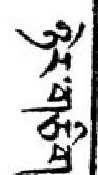ཉེར་གཅིག་
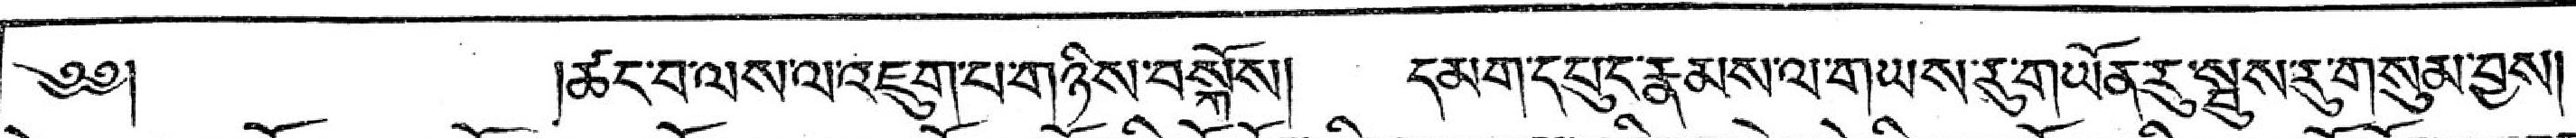༄༅། །ཚང་པ་ལས་ལ་འཇུག་པ་གཉིས་བསྐོས། དམག་དཔུང་རྣམས་ལ་གཡས་རུ་གཡོན་རུ་སྦུས་རུ་གསུམ་བྱས།
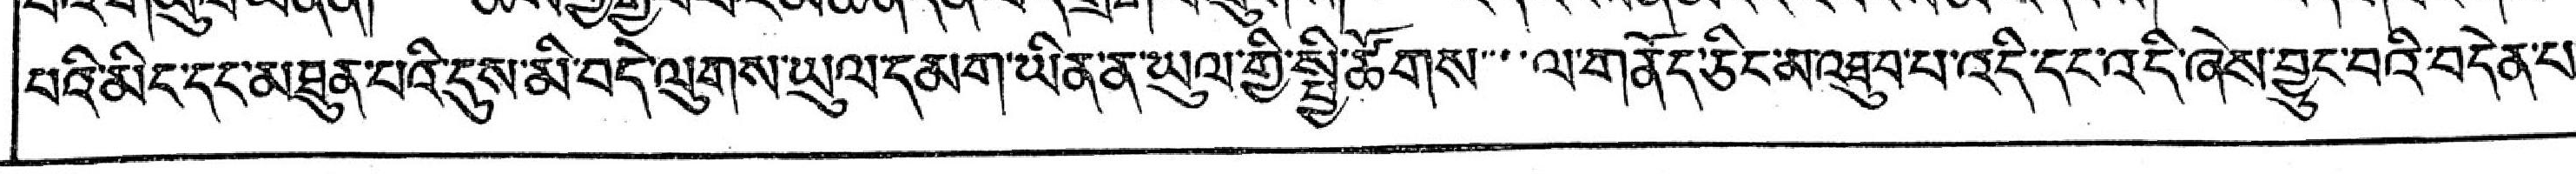པའི་མིང་དང་མཐུན་པའི་དུས་མི་བདེ་ལུགས་ཡུལ་དམག་ཡིན་ན་ཡུལ་གྱི་སྤྱི་ཚོགས་་་་ལ་གནོད་ཅིང་མ་འཐུབ་པ་འདི་དང་འདི་ཞེས་བྱུང་བའི་བདེན་པ་
